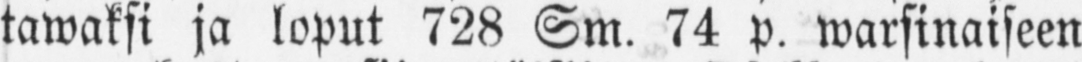tawaksi ja loput 728 Sm. 74 p. warsinaiseen
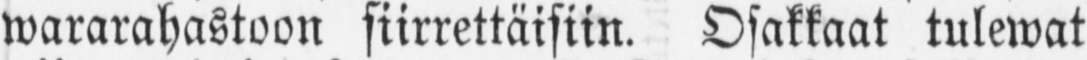wararahastoon siirrettäisiin. Osakkaat tulewat
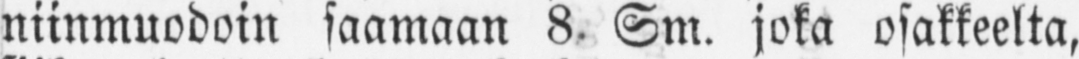niinmuodoin saamaan 8. Sm. joka osakkeelta,
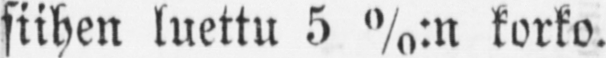siihen luettu 5 %:n korko.
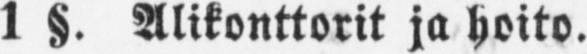1 §. Alikonttorit ja hoito.
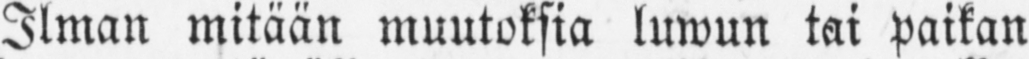Ilman mitään muutoksia luwun tai paikan
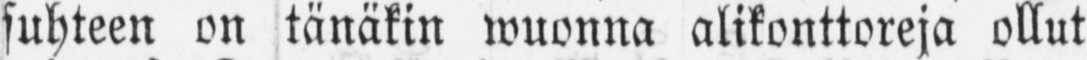suhteen on tänäkin wuonna alikonttoreja ollut
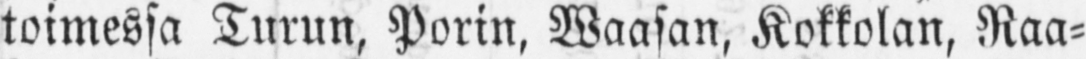toimessa Turun, Porin, Waasan, Kokkolan, Raa-
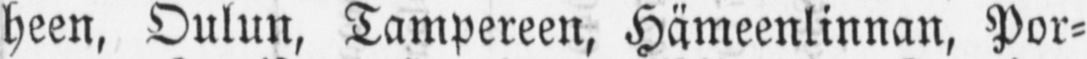heen, Oulun, Tampereen, Hämeenlinnan, Por-
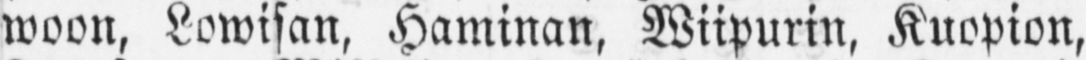woon, Lowisan, Haminan, Wiipurin, Kuopion,
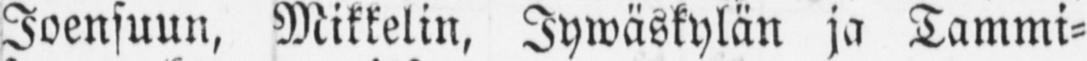Joensuun, Mikkelin, Jywäskylän ja Tammi-
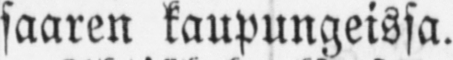saaren kaupungeissa.
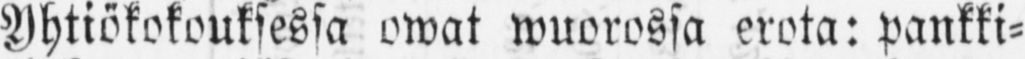Yhtiökokouksessa owat wuorossa erota: pankki-
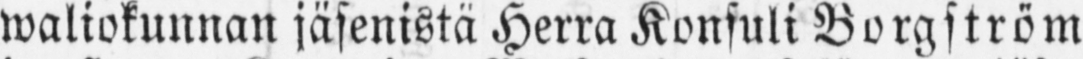waliokunnan jäsenistä Herra Konsuli Borgström
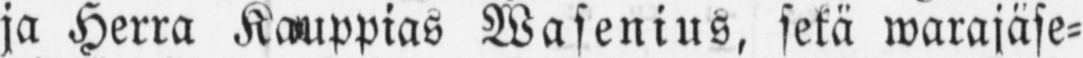ja Herra Kauppias Wasenius, sekä warajäse-
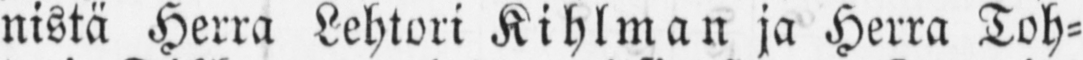nistä Herra Lehtori Kihlman ja Herra Toh-
